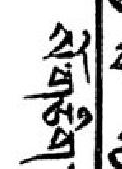སོ་གཅིག་
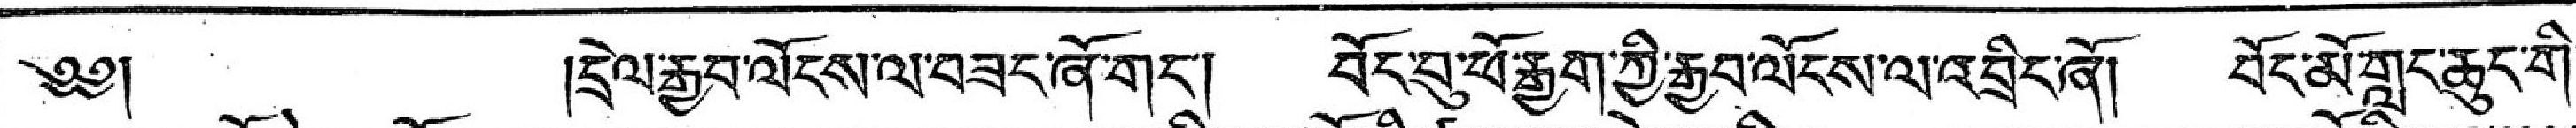༄༅།  །དྲེལ་རྒྱབ་ལོངས་ལ་བཟང་ཞོ་གང་། བོང་བུ་ཕོ་རྒྱག་ཀྱི་རྒྱབ་ལོངས་ལ་འབྲིང་ཞོ། བོང་མོ་གླང་ཆུང་གི་
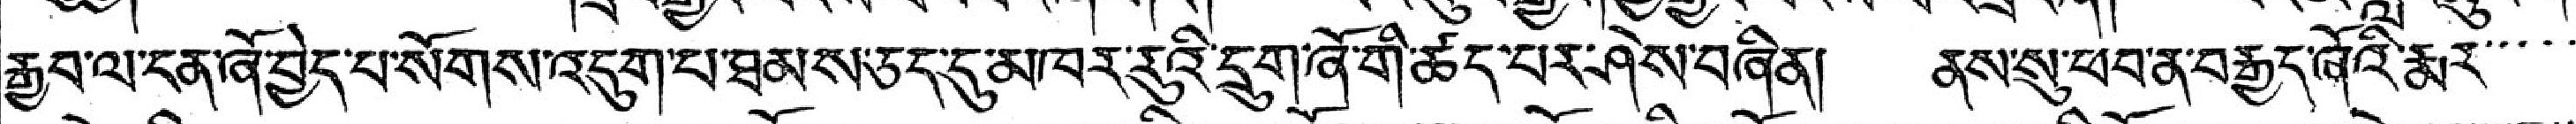རྒྱབ་ལ་ངན་ཞོ་བྱེད་པ་སོགས་འདུག་པ་ཐམས་ཅད་དུ་མ་ཁར་རུའི་དྲུག་ཞོ་གི་ཚད་པར་ཤེས་བཞིན། ནས་སུ་ཕབ་ན་བརྒྱད་ཞོའི་རྨར་་་་་
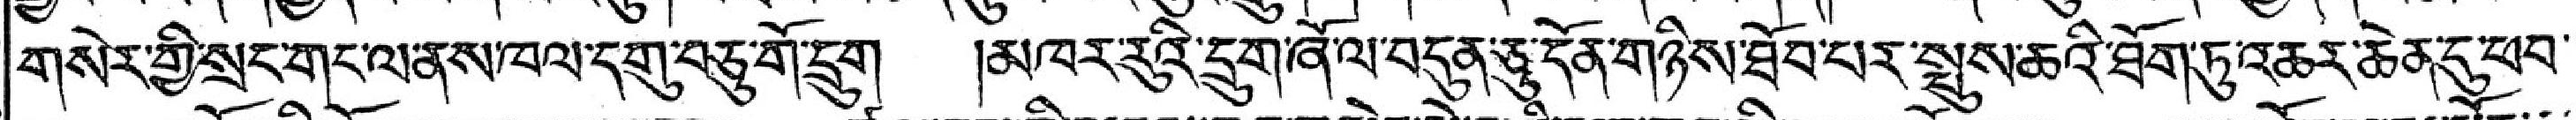གསེར་གྱི་སྲང་གང་ལ་ནས་ཁལ་དགུ་བཅུ་གོ་དྲུག །མཁར་རུའི་དྲུག་ཞོ་ལ་བདུན་ཅུ་དོན་གཉིས་ཐོབ་པར་སྤུས་ཆའི་ཐོག་ཏུ་འཆར་ཆེན་དུ་ཕུབ་་
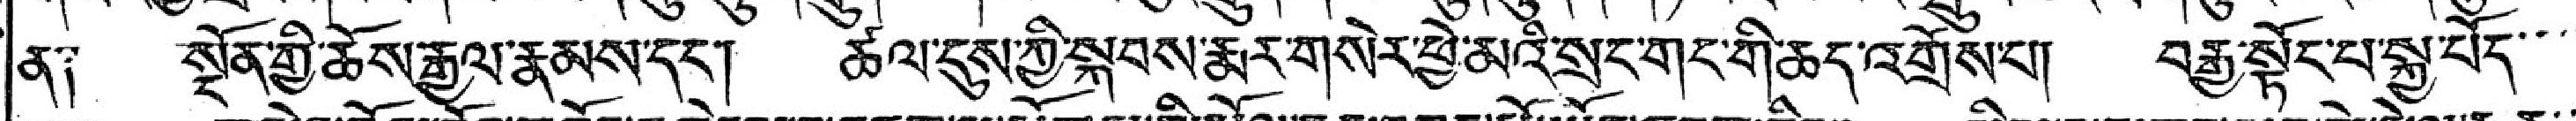ན༑ སྔོན་གྱི་ཆོས་རྒྱལ་རྣམས་དང་། ཚལ་དུས་ཀྱི་སྐབས་རྨར་གསེར་ཕྱེ་མའི་སྲང་གང་གི་ཆད་འགྲོས་པ། བརྒྱ་སྟོང་པ་སྐྱ་པོད་་་་
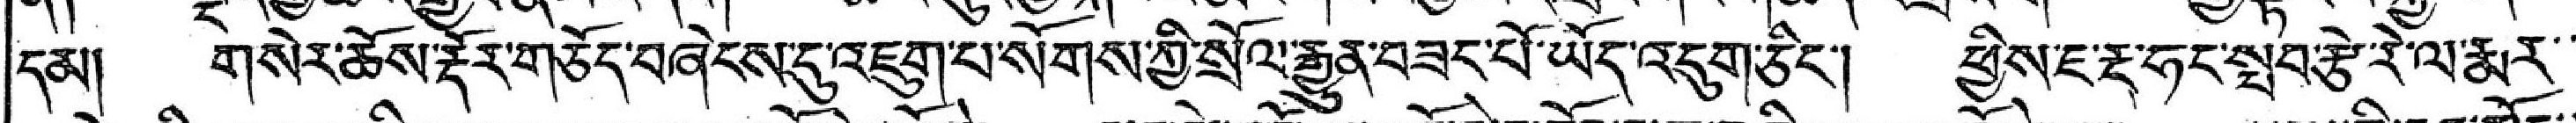དམ། གསེར་ཆོས་རྡོར་གཅོད་བཞེངས་དུ་འཇུག་པ་སོགས་ཀྱི་སྲོལ་རྒྱུན་བཟང་པོ་ཡོད་འདུག་ཅིང་། ཕྱིས་ཇ་རྔ་ཧང་སྤབ་རྩེ་རེ་ལ་རྨར་་
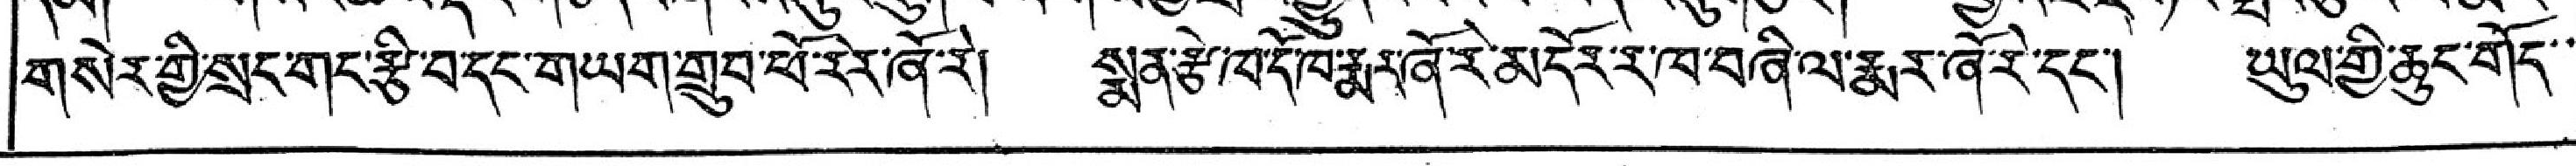གསེར་གྱི་སྲང་གང་རྩི་བ་དང་གཡོག་གྲུབ་ཕོ་རེར་ཞོ་རེ། སྨན་རྩེ་ཁ་དོ་ཁ་རྨར་ཞོ་རེ་མདོར་ར་ཁ་བཞི་ལ་རྨར་ཞོ་རེ་དང་། ཡུལ་གྱི་ཆུང་གོད་་་
